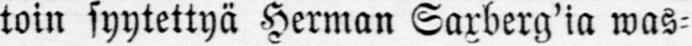toin syytettyä Herman Saxberg'ia was-
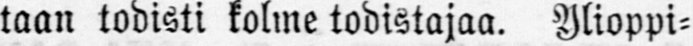taan todisti kolme todistajaa. Ylioppi-
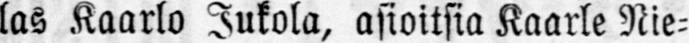las Kaarlo Jukola, asioitsia Kaarle Nie-
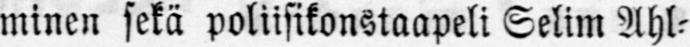minen sekä poliisikonstaapeli Selim Ahl-
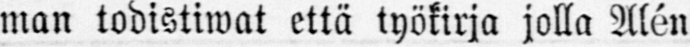man todistiwat että työkirja jolla Alén
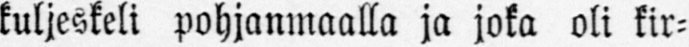kuljeskeli pohjanmaalla ja joka oli kir-
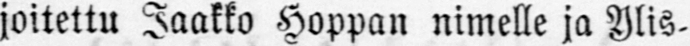joitettu Jaakko Hoppan nimelle ja Ylis-
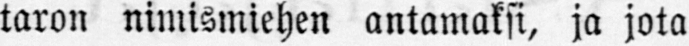taron nimismiehen antamaksi, ja jota
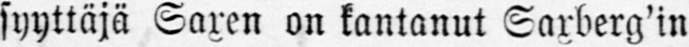syyttäjä Saxen on kantanut Saxberg'in
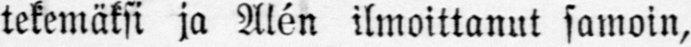tekemäksi ja Alén ilmoittanut samoin,
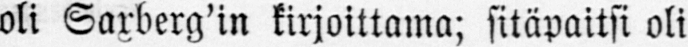oli Saxberg'in kirjoittama; sitäpaitsi oli
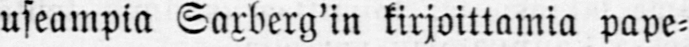useampia Saxberg'in kirjoittamia pape-
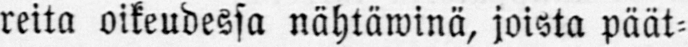reita oikeudessa nähtäwinä, joista päät-
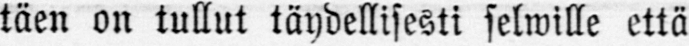täen on tullut täydellisesti selwille että
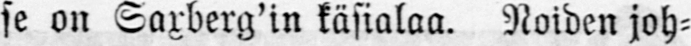se on Saxberg'in käsialaa. Noiden joh-
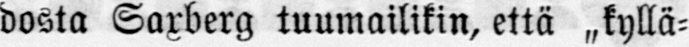dosta Saxberg tuumailikin, että „kyllä-
